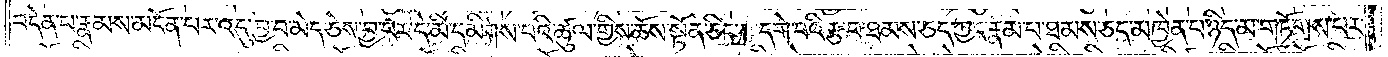བདེན་པ་རྣམས་མངོན་པར་འདུ་བྱ་བ་མེད་ཅེས་བྱ་བར་དེ་མི་དམིགས་པའི་ཚུལ་གྱིས་ཆོས་སྟོན་ཅིང༌། དགེ་བའི་རྩ་བ་ཐམས་ཅད་ཀྱང་རྣམ་པ་ཐམས་ཅད་མཁྱེན་པ་ཉིད་མ་གཏོགས་པར་
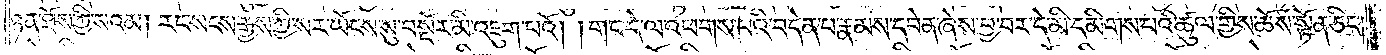ཉན་ཐོས་ཀྱི་སའམ། རང་སངས་རྒྱས་ཀྱི་སར་ཡོངས་སུ་བསྔོར་མི་འཇུག་པའོ། །གང་དེ་ལ་འཕགས་པའི་བདེན་པ་རྣམས་དབེན་ཞེས་བྱ་བར་དེ་མི་དམིགས་པའི་ཚུལ་གྱིས་ཆོས་སྟོན་ཅིང༌།
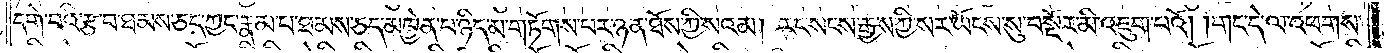དགེ་བའི་རྩ་བ་ཐམས་ཅད་ཀྱང་རྣམ་པ་ཐམས་ཅད་མཁྱེན་པ་ཉིད་མ་གཏོགས་པར་ཉན་ཐོས་ཀྱི་སའམ། རང་སངས་རྒྱས་ཀྱི་སར་ཡོངས་སུ་བསྔོར་མི་འཇུག་པའོ། །གང་དེ་ལ་འཕགས་
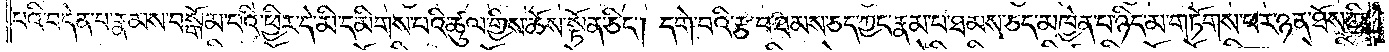པའི་བདེན་པ་རྣམས་བསྒོམ་པའི་ཕྱིར་དེ་མི་དམིགས་པའི་ཚུལ་གྱིས་ཆོས་སྟོན་ཅིང༌། དགེ་བའི་རྩ་བ་ཐམས་ཅད་ཀྱང་རྣམ་པ་ཐམས་ཅད་མཁྱེན་པ་ཉིད་མ་གཏོགས་པར་ཉན་ཐོས་ཀྱི་
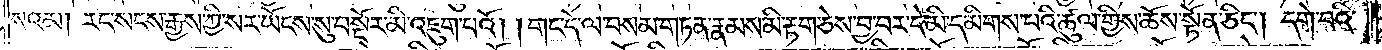སའམ། རང་སངས་རྒྱས་ཀྱི་སར་ཡོངས་སུ་བསྔོར་མི་འཇུག་པའོ། །གང་དེ་ལ་བསམ་གཏན་རྣམས་མི་རྟག་ཅེས་བྱ་བར་དེ་མི་དམིགས་པའི་ཚུལ་གྱིས་ཆོས་སྟོན་ཅིང༌། དགེ་བའི་
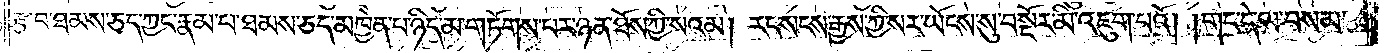རྩ་བ་ཐམས་ཅད་ཀྱང་རྣམ་པ་ཐམས་ཅད་མཁྱེན་པ་ཉིད་མ་གཏོགས་པར་ཉན་ཐོས་ཀྱི་སའམ། རང་སངས་རྒྱས་ཀྱི་སར་ཡོངས་སུ་བསྔོར་མི་འཇུག་པའོ། །གང་དེ་ལ་བསམ་
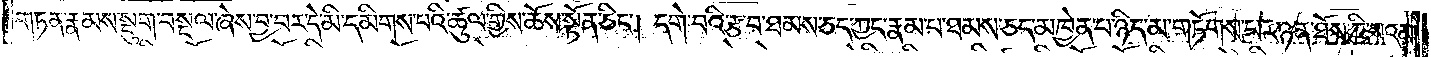གཏན་རྣམས་སྡུག་བསྔལ་ཞེས་བྱ་བར་དེ་མི་དམིགས་པའི་ཚུལ་གྱིས་ཆོས་སྟོན་ཅིང༌། དགེ་བའི་རྩ་བ་ཐམས་ཅད་ཀྱང་རྣམ་པ་ཐམས་ཅད་མཁྱེན་པ་ཉིད་མ་གཏོགས་པར་ཉན་ཐོས་ཀྱི་སའམ།
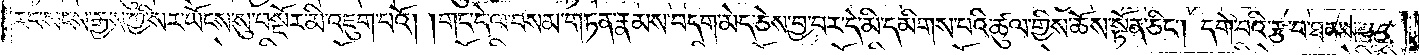རང་སངས་རྒྱས་ཀྱི་སར་ཡོངས་སུ་བསྔོར་མི་འཇུག་པའོ། །གང་དེ་ལ་བསམ་གཏན་རྣམས་བདག་མེད་ཅེས་བྱ་བར་དེ་མི་དམིགས་པའི་ཚུལ་གྱིས་ཆོས་སྟོན་ཅིང༌། དགེ་བའི་རྩ་བ་ཐམས་ཅད་
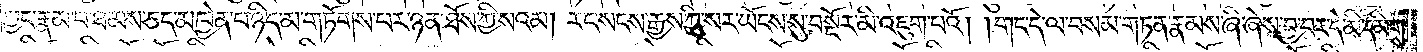ཀྱང་རྣམ་པ་ཐམས་ཅད་མཁྱེན་པ་ཉིད་མ་གཏོགས་པར་ཉན་ཐོས་ཀྱི་སའམ། རང་སངས་རྒྱས་ཀྱི་སར་ཡོངས་སུ་བསྔོར་མི་འཇུག་པའོ། །གང་དེ་ལ་བསམ་གཏན་རྣམས་ཞི་ཞེས་བྱ་བར་དེ་མི་དམིགས་
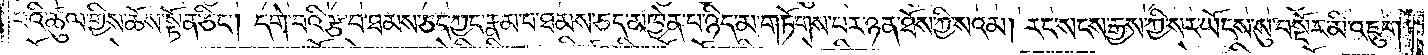པའི་ཚུལ་གྱིས་ཆོས་སྟོན་ཅིང༌། དགེ་བའི་རྩ་བ་ཐམས་ཅད་ཀྱང་རྣམ་པ་ཐམས་ཅད་མཁྱེན་པ་ཉིད་མ་གཏོགས་པར་ཉན་ཐོས་ཀྱི་སའམ། རང་སངས་རྒྱས་ཀྱི་སར་ཡོངས་སུ་བསྔོར་མི་འཇུག་
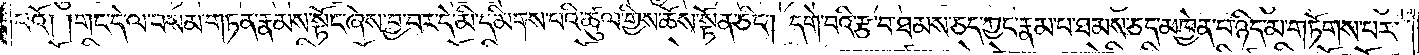པའོ། །གང་དེ་ལ་བསམ་གཏན་རྣམས་སྟོང་ཞེས་བྱ་བར་དེ་མི་དམིགས་པའི་ཚུལ་གྱིས་ཆོས་སྟོན་ཅིང༌། དགེ་བའི་རྩ་བ་ཐམས་ཅད་ཀྱང་རྣམ་པ་ཐམས་ཅད་མཁྱེན་པ་ཉིད་མ་གཏོགས་པར་
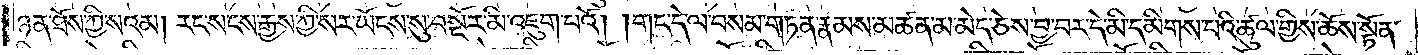ཉན་ཐོས་ཀྱི་སའམ། རང་སངས་རྒྱས་ཀྱི་སར་ཡོངས་སུ་བསྔོར་མི་འཇུག་པའོ། །གང་དེ་ལ་བསམ་གཏན་རྣམས་མཚན་མ་མེད་ཅེས་བྱ་བར་དེ་མི་དམིགས་པའི་ཚུལ་གྱིས་ཆོས་སྟོན་
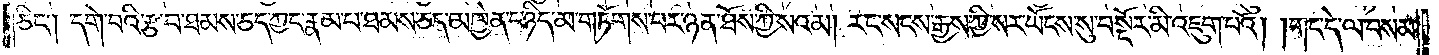ཅིང༌། དགེ་བའི་རྩ་བ་ཐམས་ཅད་ཀྱང་རྣམ་པ་ཐམས་ཅད་མཁྱེན་པ་ཉིད་མ་གཏོགས་པར་ཉན་ཐོས་ཀྱི་སའམ། རང་སངས་རྒྱས་ཀྱི་སར་ཡོངས་སུ་བསྔོར་མི་འཇུག་པའོ། །གང་དེ་ལ་བསམ་
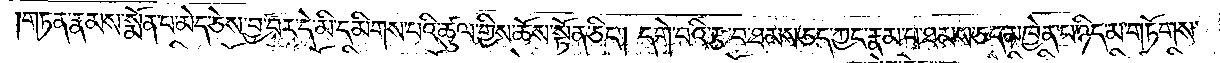གཏན་རྣམས་སྨོན་པ་མེད་ཅེས་བྱ་བར་དེ་མི་དམིགས་པའི་ཚུལ་གྱིས་ཆོས་སྟོན་ཅིང༌། དགེ་བའི་རྩ་བ་ཐམས་ཅད་ཀྱང་རྣམ་པ་ཐམས་ཅད་མཁྱེན་པ་ཉིད་མ་གཏོགས་
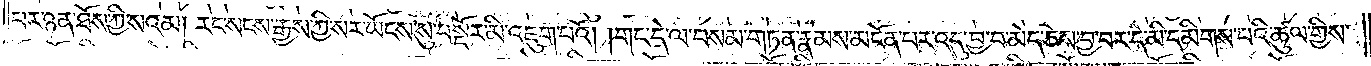པར་ཉན་ཐོས་ཀྱི་སའམ། རང་སངས་རྒྱས་ཀྱི་སར་ཡོངས་སུ་བསྔོར་མི་འཇུག་པའོ། །གང་དེ་ལ་བསམ་གཏན་རྣམས་མངོན་པར་འདུ་བྱ་བ་མེད་ཅེས་བྱ་བར་དེ་མི་དམིགས་པའི་ཚུལ་གྱིས་
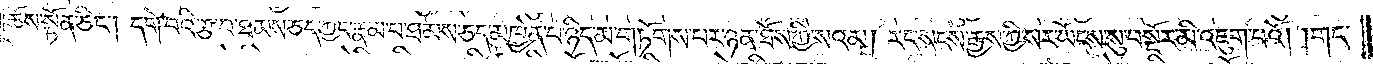ཆོས་སྟོན་ཅིང༌། དགེ་བའི་རྩ་བ་ཐམས་ཅད་ཀྱང་རྣམ་པ་ཐམས་ཅད་མཁྱེན་པ་ཉིད་མ་གཏོགས་པར་ཉན་ཐོས་ཀྱི་སའམ། རང་སངས་རྒྱས་ཀྱི་སར་ཡོངས་སུ་བསྔོར་མི་འཇུག་པའོ། །གང་
